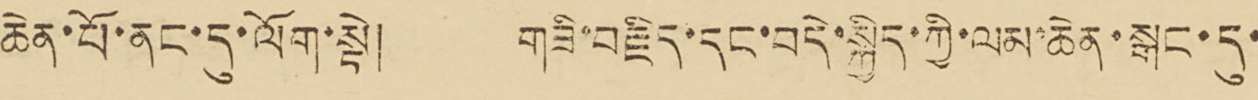ཆེན་པོ་ནང་དུ་ལོག་སྟེ། གཟི་བརྗིད་དང་བདེ་སྐྱིད་ཀྱི་ལམ་ཆེན་སྒང་དུ་
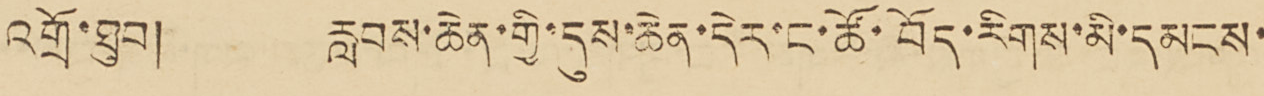འགྲོ་ཐུབ། རླབས་ཆེན་གྱི་དུས་ཆེན་དེར་ང་ཚོ་བོད་རིགས་མི་དམངས་
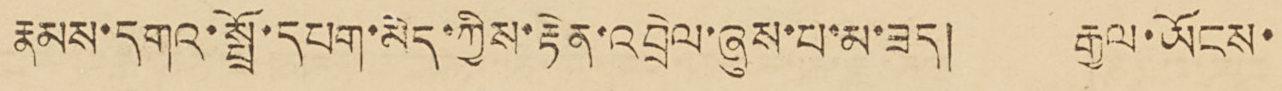རྣམས་དགའ་སྤྲོ་དཔག་མེད་ཀྱིས་རྟེན་འབྲེལ་ཞུས་པ་མ་ཟད། རྒྱལ་ཡོངས་
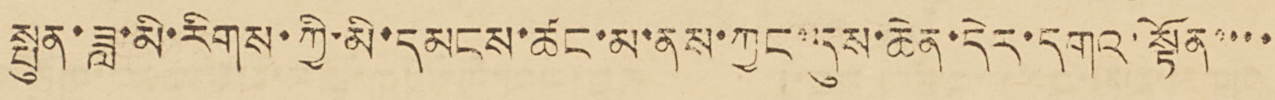སྤུན་ཟླ་མི་རིགས་ཀྱི་མི་དམངས་ཚང་མ་ནས་ཀྱང་དུས་ཆེན་དེར་དགའ་སྟོན་་་་
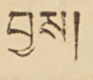བྱས།
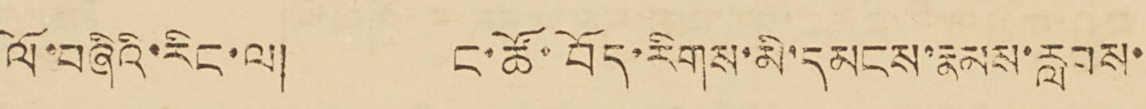ལོ་བཞིའི་རིང་ལ། ང་ཚོ་བོད་རིགས་མི་དམངས་རྣམས་རླབས་
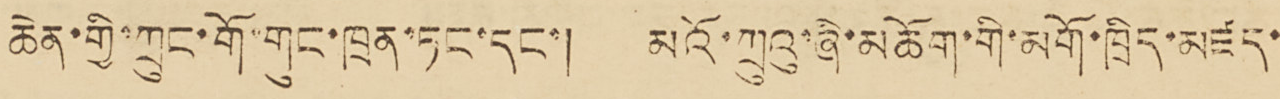ཆེན་གྱི་ཀྲུང་གོ་གུང་ཁྲན་ཏང་དང་། མའོ་ཀྲུའུ་ཞི་མཆོག་གི་མགོ་ཁྲིད་མཛད་
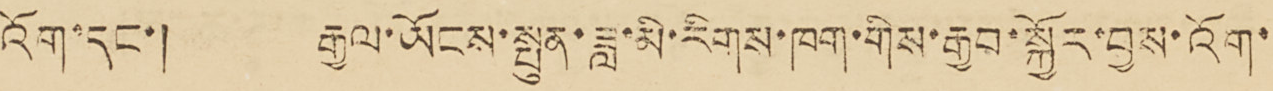འོག་དང་། རྒྱལ་ཡོངས་སྤུན་ཟླ་མི་རིགས་ཁག་གིས་རྒྱབ་སྐྱོར་བྱས་འོག་
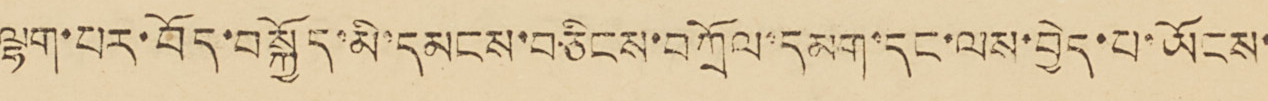ལྷག་པར་བོད་བསྐྱོད་མི་དམངས་བཅིངས་བཀྲོལ་དམག་དང་ལས་བྱེད་པ་ཡོངས་
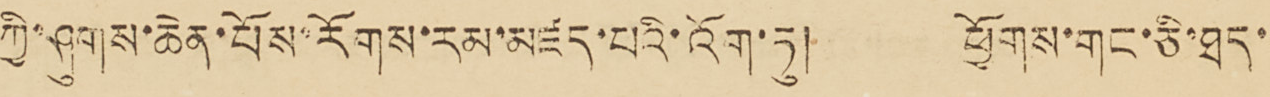ཀྱི་ཤུགས་ཆེན་པོས་རོགས་རམ་མཛད་པའི་འོག་ཏུ། ཕྱོགས་གང་ཅི་ཐད་
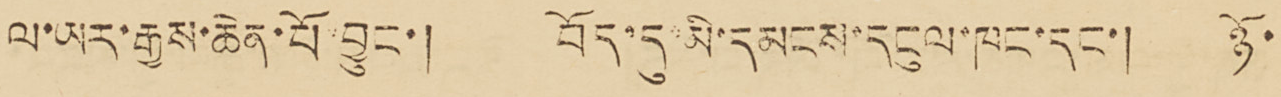ལ་ཡར་རྒྱས་ཆེན་པོ་བྱུང་། བོད་དུ་མི་དམངས་དངུལ་ཁང་དང་། ཉོ་
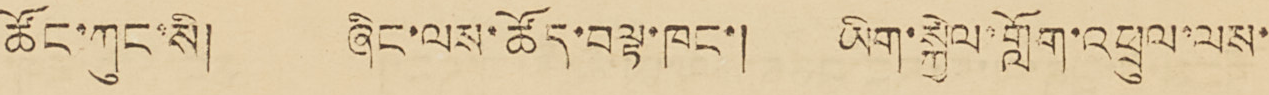ཚོང་ཀུང་སི། ཞིང་ལས་ཚོད་བལྟ་ཁང་། ཡིག་སྐྱེལ་གློག་འཕྲུལ་ལས་
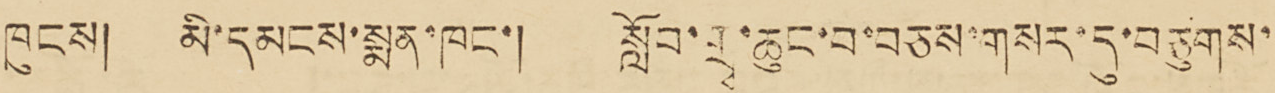ཁུངས། མི་དམངས་སྨན་ཁང་། སློབ་གྲྭ་ཆུང་བ་བཅས་གསར་དུ་བཅུགས་
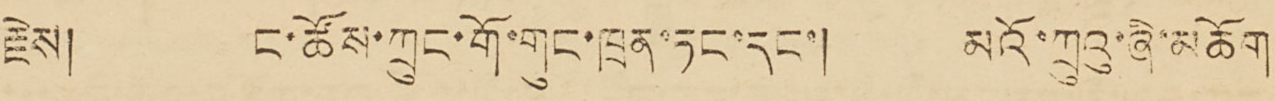རྗེས། ང་ཚོས་ཀྲུང་གོ་གུང་ཁྲན་ཏང་དང་། མའོ་ཀྲུའུ་ཞི་མཆོག
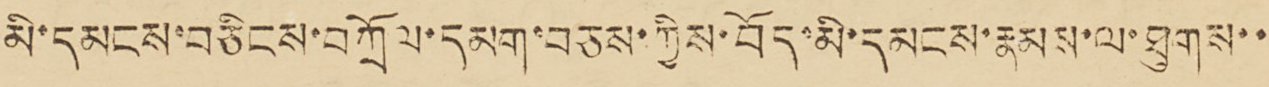མི་དམངས་བཅིངས་བཀྲོལ་དམག་བཅས་ཀྱིས་བོད་མི་དམངས་རྣམས་ལ་ཐུགས་་
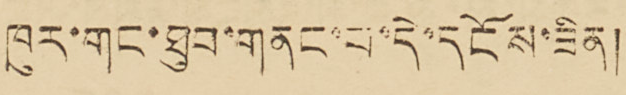ཁུར་གང་ཐུབ་གནང་པ་དེ་དངོས་ཟིན།
